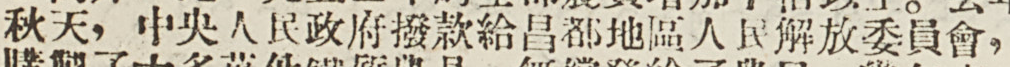秋天，中央人民政府撥款給昌都地區人民解放委員會，
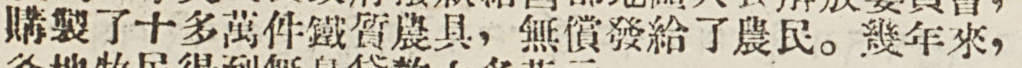購製了十多萬件鐵質農具，無償發給了農民。幾年來，
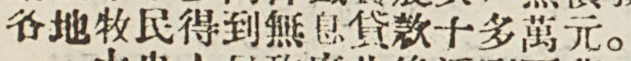各地牧民得到無息貸款十多萬員。
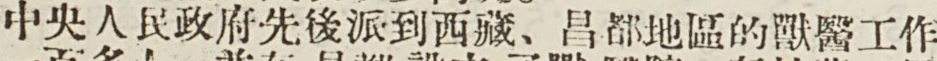中央人民政府先後派到西藏、昌都地區的獸醫工作
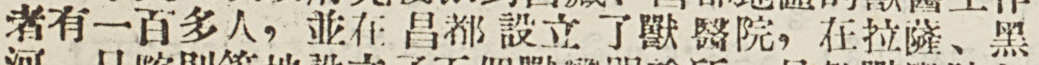者有一百多人，並在昌都設立了獸醫院，在拉薩、黑
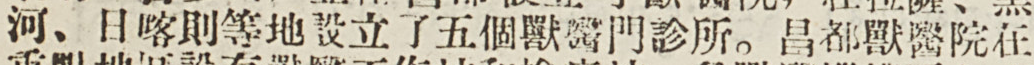河、日喀則等地設立了五個獸醫門診所。昌都獸醫院在
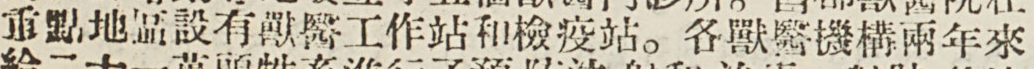重點地區設有獸醫工作站和檢疫站。各獸醫機構兩年來
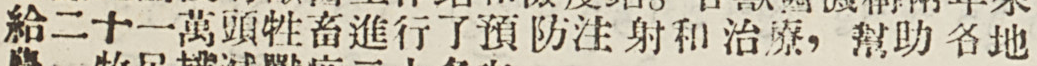給二十一萬頭牲畜進行了預防注射和治療，幫助各地
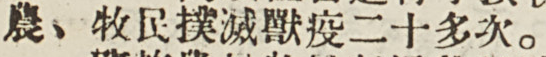農、牧民撲滅獸疫二十多次。
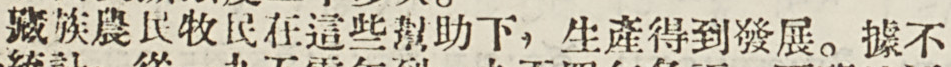藏族農民牧民在這些幫助下，生產得到發展。據不
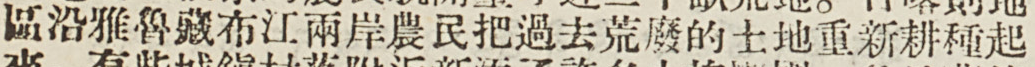區沿雅魯藏布江兩岸農民把過去荒廢的土地重新耕種起
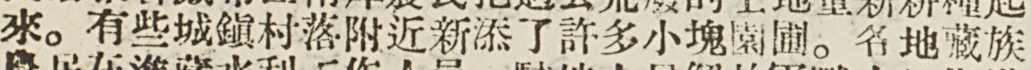來。有些城鎮村落附近新添了許多小塊園圃。各地藏族
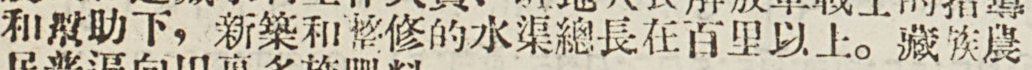和幫助下，新築和整修的水渠總長在百里以上。藏族農
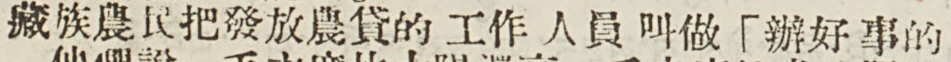藏族農民把發放農貸的工作人員叫做「辦好事的
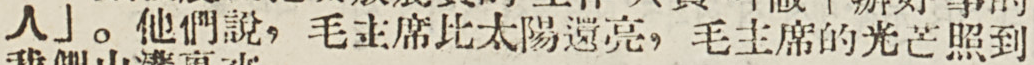人」。他們說，毛主席比太陽還亮，毛主席的光芒照到
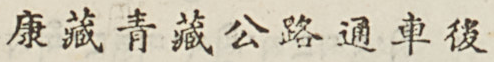康藏青藏公路通車後
